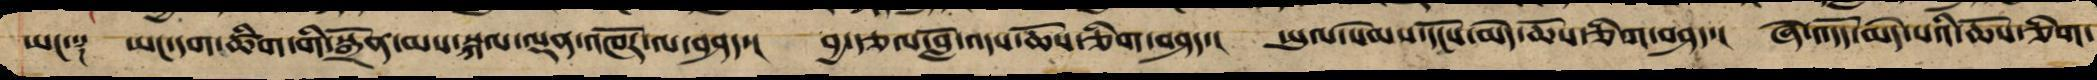ཡང་༑ ཡང་དག་ཚིག་གི་སྒྲོན་མས་སྐལ་ལྡན་འཁོར་ལ་བཤད་། བྱ་རྩལ་བློ་འདས་ཆོས་ཤིག་བཤད་། ཡུལ་སེམས་དངོས་མེད་ཆོས་ཅིག་བཤད་། ཞེ་འདོད་མེད་པའི་ཆོས་ཅིག་
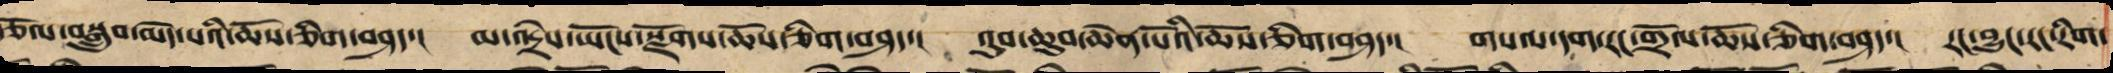རྩོལ་བསྒྲུབ་མེད་པའི་ཆོས་ཅིག་བཤད་། མ་འདྲེས་ཡོངས་སྫོགས་ཆོས་ཅིག་བཤད་། འུབ་ཆུབ་ཆེན་པོའི་ཆོས་ཅིག་བཤད་། གསལ་དག་རང་གྲོལ་ཆོས་ཅིག་བཤད་། རང་བྱུང་རང་རིག་
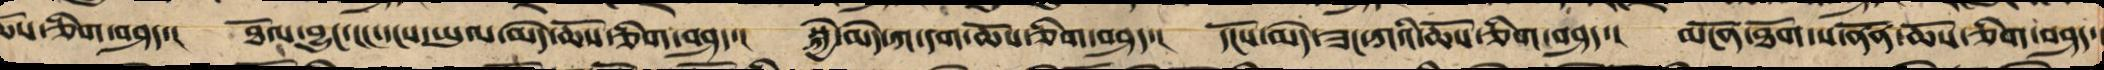ཆོས་ཅིག་བཤད་། ཐོལ་བྱུང་ངང་དངས་ཡུལ་མེད་ཆོས་ཅིག་བཤད་། སྐྱེ་མེད་ཀ་དག་ཆོས་ཅིག་བཤད་། དངོས་མེད་ཟང་ཀའི་ཆོས་ཅིག་བཤད་། མངོན་ཐོག་ས་ནོན་ཆོས་ཅིག་བཤད་།
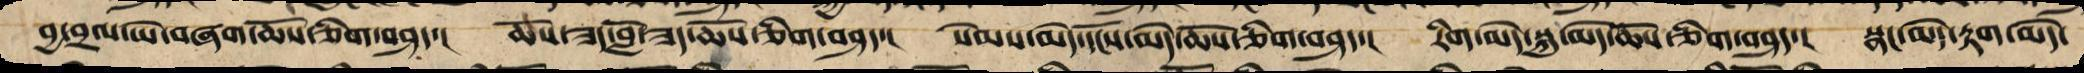བྱ་བྲལ་ཡེ་བཞག་ཆོས་ཅིག་བཤད་། ཆོས་ཟད་བློ་ཟད་ཆོས་ཅིག་བཤད་། སེམས་མེད་དངོས་མེད་ཆོས་ཅིག་བཤད་། རིག་མེད་སྐུ་མེད་ཆོས་ཅིག་བཤད་། སྣང་མེད་རྟག་མེད་
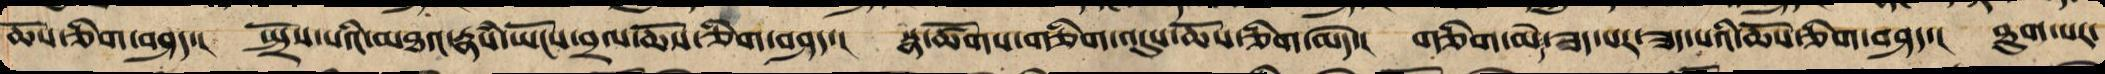ཆོས་ཅིག་བཤད་། སྤྲོས་པའི་མཐའ་རྣཾས་ཡོངས་བྲལ་ཆོས་ཅིག་བཤད་། སྣ་ཚོགས་གཅིག་འདུས་ཆོས་ཅིག་མེད་། གཅིག་མེད་ཟད་པར་ཟད་པའི་ཆོས་ཅིག་བཤད་། ཐུག་པར་
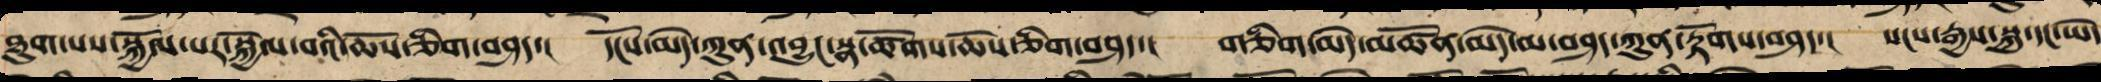ཐུག་པས་སྐྱོལ་པར་སྐྱོལ་བའི་ཆོས་ཅིག་བཤད་། དངོས་མེད་ཀུན་འབྱུང་སྣ་ཚོགས་ཆོས་ཅིག་བཤད་། གཅིག་མེད་མཚོན་མེད་མ་བཤད་ཀུན་རྟོགས་བཤད་། སངས་རྒྱས་སྐུ་དང་ཡེ་
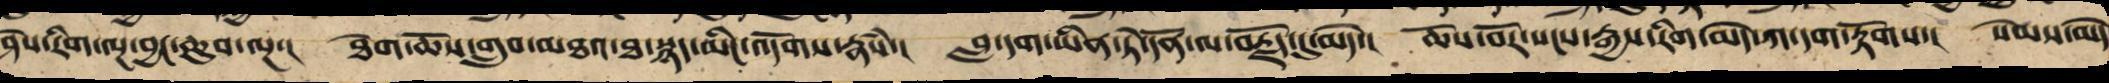ཤེས་རིགས་ལྔ་བྱང་ཆུབ་ལྔ་། ཐེག་ཆོས་གྲུབ་མཐའ་ཐ་སྙད་མིང་འདོགས་རྣཾས་། བླ་དག་ཡིན་ཏེ་དོན་ལ་བརྗོད་དུ་མེད་། ཆོས་བོར་སངས་རྒྱས་རིག་མེད་ཀ་དག་རྟོགས་། སེམས་མེད
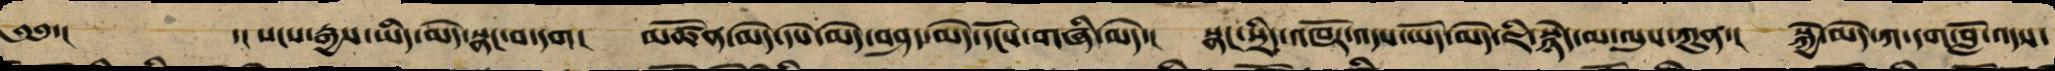༄༅་། ་། སངས་རྒྱས་ཡིད་མེད་སྣང་བ་དག། མཚོན་མེད་དཔེ་མེད་བཤད་མེད་དངོས་གཞི་མེད་། སྣང་སྲིད་འཁོར་འདས་ཡོད་མེད་ཇི་སྙེད་མ་ལུས་ཀུན་། སྐྱེ་མེད་ཀ་དག་བློ་འདས་
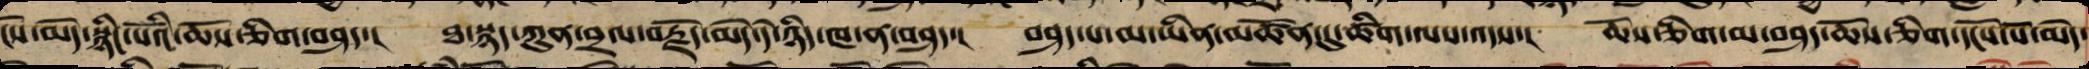ངོས་མེད་སྙིང་པོའི་ཆོས་ཅིག་བཤད་། ཐ་སྙད་ཀུན་བྲལ་བརྗོད་མེད་དེ་ཉིད་ཁ་ན་བཤད་། བཤད་པ་མ་ཡིན་མཚོན་དུ་ཚིག་ལས་འདས་། ཆོས་གཅིག་མ་བཤད་ཆོས་གཅིག་དངོས་པོ་མེད་
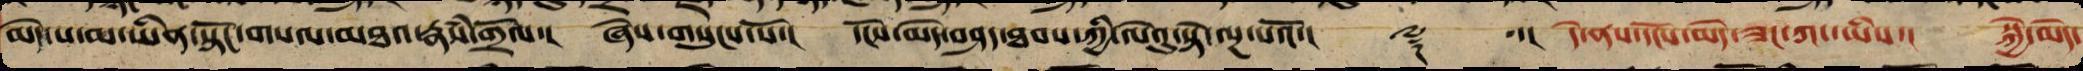མེད་པ་མ་ཡིན་སྟོང་གསལ་མཐའ་རྣཾས་གྲོལ་། ཞེས་གསུངས་སོ་། དངོས་མེད་བཤད་ཐབས་ཀྱི་ལེའུ་སྟེ་ལྔ་པའོ་།། ༈ ་། དེ་ནས་དངོས་མེད་ཟང་ཀ་ཡིས་། སྐྱེ་མེད་
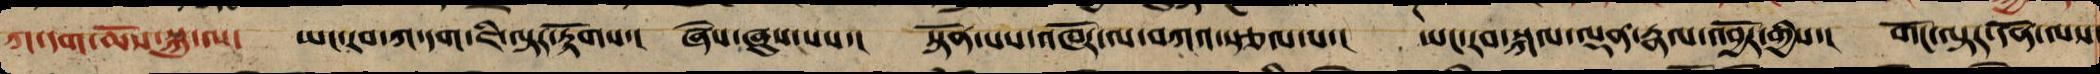ཀ་དག་ཆོས་སྐུ་ལ་ ཡང་རབ་ཀ་དག་ཇི་ལྟར་རྟོགས་། ཞེས་ཞུས་པས་། སྟོན་པས་འཁོར་ལ་བཀའ་སྩལ་པ་། ཡང་རབ་སྐལ་ལྡན་རྣལ་འབྱོར་གྱིས་། གོང་ལྟར་དོན་ལས་
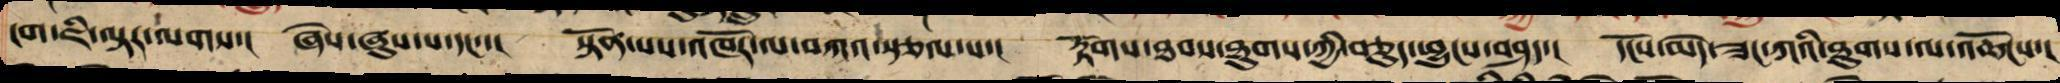ངག་ཇི་ལྟར་ལགས་། ཞེས་ཞུས་པ་དང་་། སྟོན་པས་འཁོར་ལ་བཀའ་སྩལ་པ་། རྟོགས་ཐབས་ཐུགས་ཀྱི་བཅུད་ཕྱུང་བཤད་། དངོས་མེད་ཟང་ཀའི་ཐུགས་ལ་ཆོངས་།
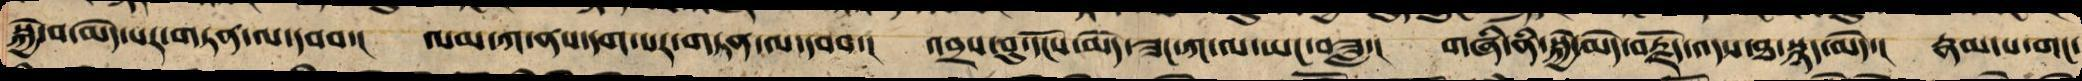སྐྱེ་བ་མེད་པར་གཏན་ལ་དབབ་། ལམ་ཀ་ནས་དག་པར་གཏན་ལ་དབབ་། འབྲས་བུ་དངོས་མེད་ཟང་ཀ་ལ་ཡང་བཟླ་། གཞི་ནི་སྐྱེ་མེད་བརྗོད་འདས་ཐ་སྙད་མེད་། རྣམ་པ་གང་
